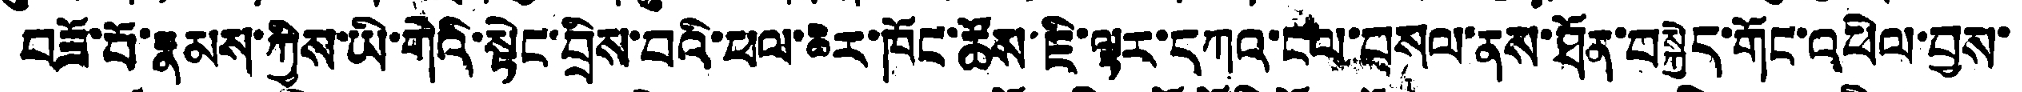བཟོ་པོ་རྣམས་ཀྱིས་ཡི་གེའི་སྟེང་བྲིས་པའི་ཕལ་ཆེར་ཁོང་ཚོས་རཇི་ལྟར་དཀའ་ངལ་བསལ་ནས་ཐོན་བསྐྱེད་གོང་འཕེལ་བྱས་
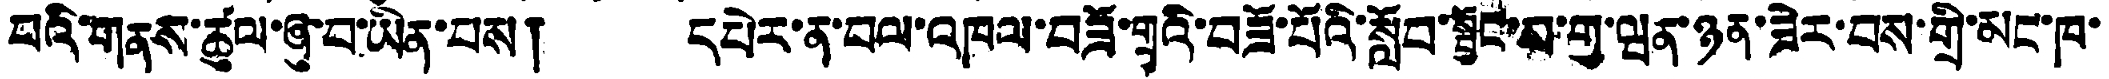པའི་གནས་ཚུལ་ཞུ་བ་ཡིན་པས། དཔེར་ན་བལ་འཁལ་བཟོ་གྲྭའི་བཟོ་པོའི་སློབ་སྦྱོང་བ་གྱ་ཝན་ཉན་ཟེར་བས་གྲི་མང་ཁ་
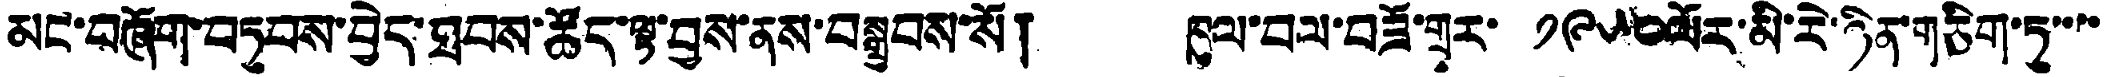མང་བཞོག་བཏབས་བྱེད་ཐབས་ཚོད་ལྟ་བྱས་ནས་བསྒྲུབས་སོ། ཁུལ་བལ་བཟོ་གྲྭར་ ༡༩༥༠ལོར་མི་རེ་ཉིན་གཅིག་ཏུ་་་་
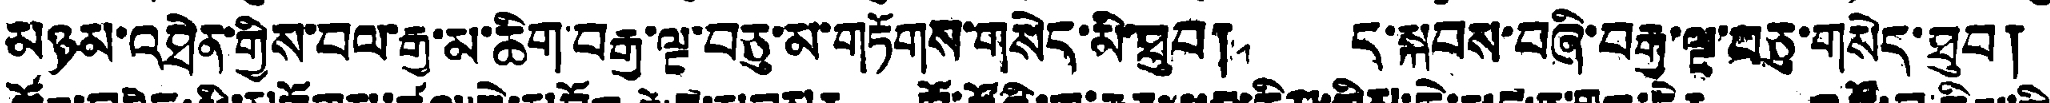མཉམ་འཐེན་གྱིས་བལ་རྒྱ་མ་ཆིག་བརྒྱ་ལྔ་བཅུ་མ་གཏོགས་གསེད་མི་ཐུབ། ད་སྐབས་བཞི་བརྒྱ་ལྔ་བཅུ་གསེད་ཐུབ།
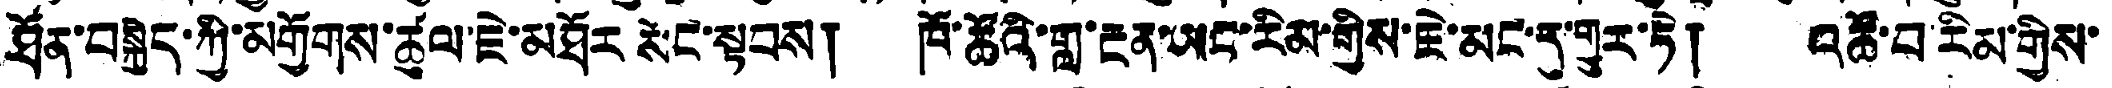ཐོན་བསྐྱིད་ཀྱི་མགྱོགས་ཚུལ་ཇེ་མཐོར སོང་སྟབས། ཁོ་ཚོའི་གླ་རྔན་ཡང་རིམ་གྱིས་ཇེ་མང་དུ་གྱུར་ཏེ། འཚོ་བ་རིམ་གྱིས་
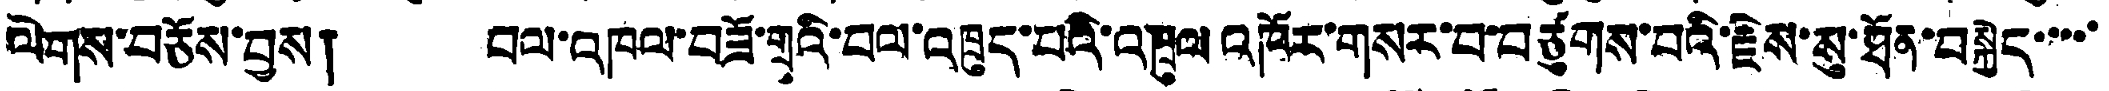ལེགས་བཅོས་བྱས། བལ་འཁལ་བཟོ་གྲྭའི་བལ་འཁྲུད་པའི་འཁྲུལ འཁོར་གསར་བ་བཙུགས་པའི་རྗེས་སུ་ཐོན་བསྐྱེད་་་་་
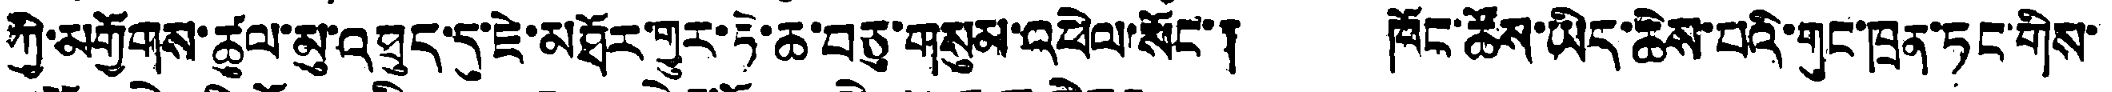ཀྱི་མགྱོགས་ཚུལ་མུ་འཐུད་དུ་ཇེ་མཐོར་གྱུར་ཏེ་ཆ་བཅུ་གསུམ་འཕེལ་སོང་། ཁོང་ཚོས་ཡིད་ཆེས་པའི་གུང་ཁྲན་ཏང་གིས་
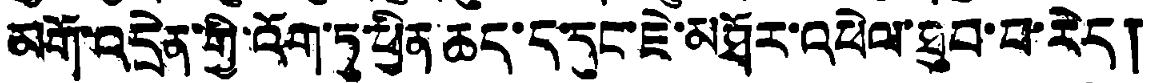མགོ་འདྲེན་གྱི་འོག་ཏུ་ཕྱིན་ཆད་ད་དུང་ཇེ་མཐོར་འཕེལ་ཐུབ་པ་རེད།
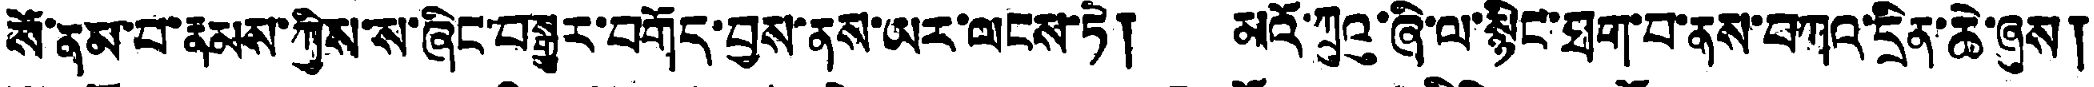སོ་ནམ་པ་རྣམས་ཀྱིས་ས་ཞིང་བསྒྱུར་བགོད་བྱས་ནས་ཡར་ལངས་ཏེ། མའོ་ཀྲུའུ་ཞི་ལ་སྙིང་ཐག་བ་ནས་བཀའ་དྲིན་ཆེ་ཞུས།
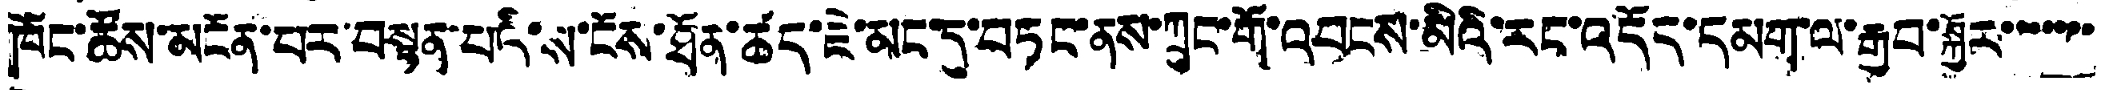ཁོང་ཚོས་མངོན་པར་བསྟན་པའི་ས་ངོས་ཐོན་ཚད་ཇེ་མང་དུ་བཏང་ནས་ཀྲུང་གོ་འབངས་མིའི་རང་འདོད་དམག་ལ་རྒྱབ་སྐྱོར་་་་་་་་
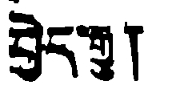བྱེད་རྒྱུ།
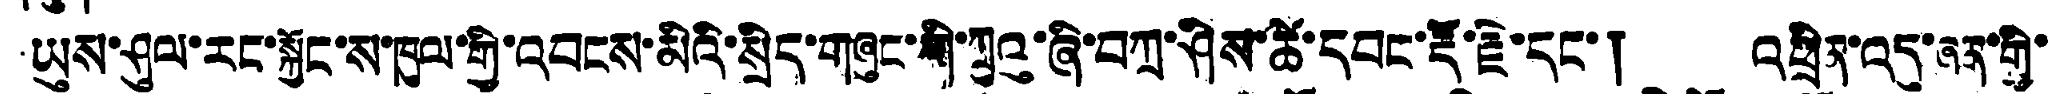ཡུས་ཤུལ་རང་སྐྱོང་ས་ཁུལ་གྱི་འབངས་མིའི་སྲིད་གཞུང་གི་ཀྲུའུ་ཞི་བཀྲ་ཤིས་ཚེ་དབང་རྡོ་རྗེ་དང་། འཕྲིན་འདུ་ཞན་གྱི་
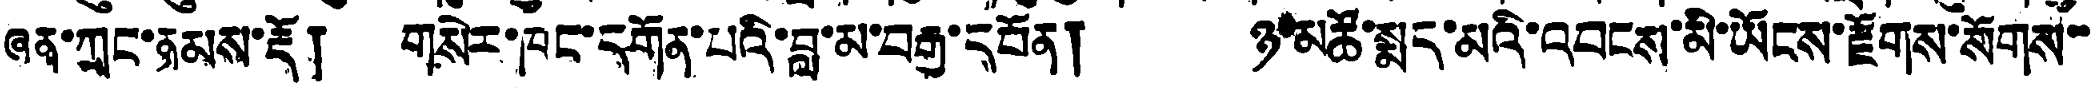ཞན་ཀྲང་ནམས་རྡོ། གསེར་ཁང་དགོན་པའི་བླ་མ་བརྒྱ་དཔོན། ཉ་མཚོ་སྨད་མའི་འབངས་མི་ཡོངས་རྫོགས་སོགས་་
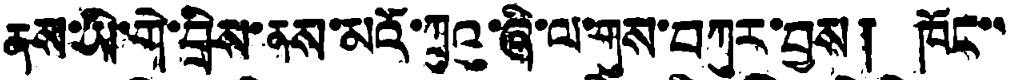ནས་ཡི་གེ་བྲིས་ནས་མའོ་ཀྲུའུ་ཞི་ལ་གུས་བཀུར་བྱས། ཁོང་་
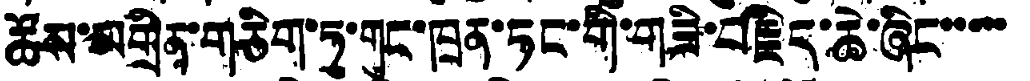ཚོས་མགྲིན་གཅིག་ཏུ་གུང་ཁྲན་ཏང་གི་གཟི་བརྗིད་ཆེ་ཞིང་་་་་
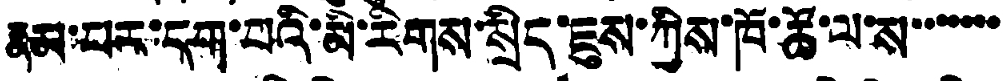རྣམ་པར་དག་པའི་མི་རིགས་སྲིད་ཇུས་ཀྱིས་ཁོ་ཚོ་ལ་ས་་་་་་་
